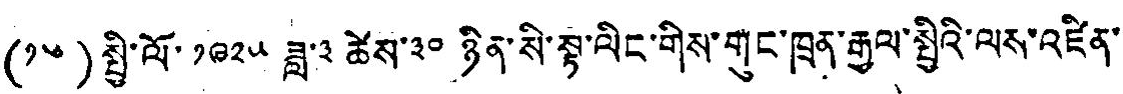(༡༦)སྤྱི་ལོ་༡༩༢༥ ཟླ་༣ ཚེས་༣༠ ཉིན་སི་སྟ་ལིང་གིས་གུང་ཁྲན་རྒྱལ་སྤྱིའི་ལས་འཛིན་
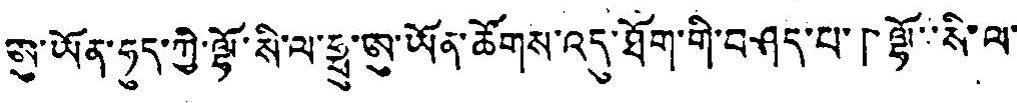ཨུ་ཡོན་ཧུད་ཀྱི་ལྷོ་སི་ལ་ཧྥུ་ཨུ་ཡོན་ཚོགས་འདུ་ཐོག་གི་བཤད་པ་「ལྷོ་སི་ལ་
